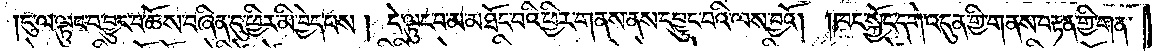ངུ་ལ་ལྟུང་བ་བྱུང་བ་ཆོས་བཞིན་དུ་ཕྱིར་མི་བྱེད་པས། དེ་ལྟུང་བ་མ་མཐོང་བའི་ཕྱིར་གནས་ནས་དབྱུང་བའི་ལས་བྱའོ། །ཁང་སྐྱོང་དགེ་འདུན་གྱི་གནས་བརྟན་གྱི་གན་
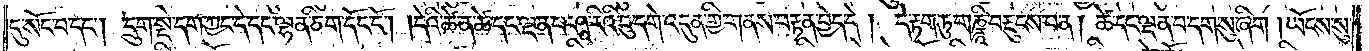དུ་སོང་བ་དང༌། དྲུག་སྡེ་དག་ཀྱང་དེ་དང་ལྷན་ཅིག་དོང་ངོ༌། །དེའི་ཚེ་ན་ཚེ་དང་ལྡན་པ་ཤཱ་རིའི་བུ་དགེ་འདུན་གྱི་གནས་བརྟན་བྱེད་དེ། དེ་རྟག་ཏུ་གཎྜཱི་བརྡུངས་པ་ན། ཚེ་དང་ལྡན་པ་དག་སུ་ཞིག །ཡོངས་སུ་
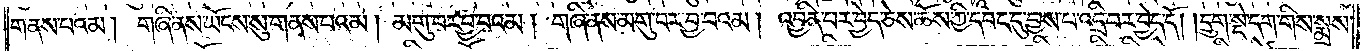གནས་པའམ། གཞི་ནས་ཡོངས་སུ་གནས་པའམ། མགུ་བར་བྱ་བའམ། གཞི་ནས་མགུ་བར་བྱ་བའམ། འབྱིན་པར་བྱེད་ཅེས་ཆོས་ཀྱི་དབང་དུ་བྱས་པ་འདྲི་བར་བྱེད་དོ། །དྲུག་སྡེ་དག་གིས་སྨྲས་
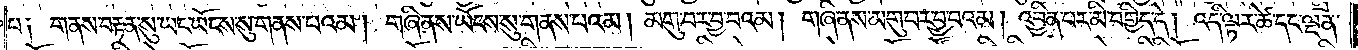པ༑ གནས་བརྟན་སུ་ཡང་ཡོངས་སུ་གནས་པའམ། གཞི་ནས་ཡོངས་སུ་གནས་པའམ། མགུ་བར་བྱ་བའམ། གཞི་ནས་མགུ་བར་བྱ་བའམ། འབྱིན་པར་མི་བགྱིད་དེ། འདི་ལྟར་ཚེ་དང་ལྡན་
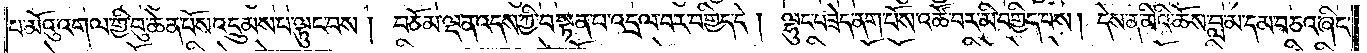པ་མོའུ་འགལ་གྱི་བུ་ཆེན་པོས་འདྲུམས་པ་ལྟུང་བས། བཅོམ་ལྡན་འདས་ཀྱི་བསྟན་པ་འདྲལ་བར་བགྱིད་དེ། ལྷུང་བཟེད་ནག་པོས་འཚོ་བར་མི་བགྱིད་པས། དེས་ན་མིའི་ཆོས་བླ་མ་དམ་བཅའ་ཞིང་
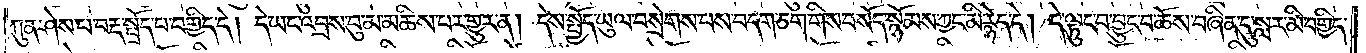ཀུན་ཤེས་པ་བརྡ་སྤྲོད་པ་བགྱིད་དེ། དེ་ཡང་འབྲས་བུ་མ་མཆིས་པར་གྱུར་ན། དེས་སྤྱོད་ཡུལ་བསྲེགས་པས་བདག་ཅག་གིས་བསོད་སྙོམས་ཀྱང་མི་རྙེད་དེ། དེ་ལྟུང་བ་བྱུང་བ་ཆོས་བཞིན་དུ་སླར་མི་བགྱིད་
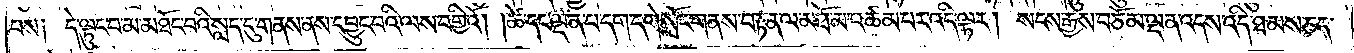པས༑ དེ་ལྟུང་བ་མ་མཐོང་བའི་སླད་དུ་གནས་ནས་དབྱུང་བའི་ལས་བགྱིའོ། །ཚེ་དང་ལྡན་པ་དག་དགེ་སློང་གནས་བརྟན་ལ་མཐོ་མ་འཚམ་པར་འདི་ལྟར། སངས་རྒྱས་བཅོམ་ལྡན་འདས་འདི་ཐམས་ཅད་
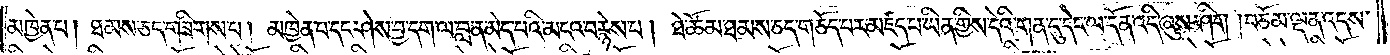མཁྱེན་པ། ཐམས་ཅད་གཟིགས་པ། མཁྱེན་པ་དང་ཤེས་བྱ་དག་ལ་བླ་ན་མེད་པའི་མངའ་བརྙེས་པ། ཐེ་ཚོམ་ཐམས་ཅད་གཅོད་པར་མཛད་པ་ཡིན་གྱིས་དེའི་གན་དུ་དེང་ལ་དོན་འདི་ཞུས་ཤིག །བཅོམ་ལྡན་འདས་
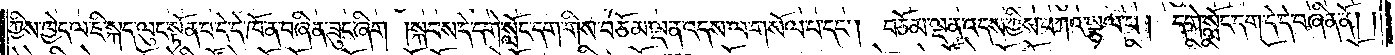ཀྱིས་ཁྱེད་ལ་ཇི་སྐད་ལུང་སྟོན་པ་དེ་དེ་ཁོ་ན་བཞིན་ཟུང་ཞིག །སྐབས་དེ་དགེ་སློང་དག་གིས་བཅོམ་ལྡན་འདས་ལ་གསོལ་པ་དང༌། བཅོམ་ལྡན་འདས་ཀྱིས་བཀའ་སྩལ་པ། དགེ་སློང་དག་དེ་དེ་བཞིན་ནོ། །
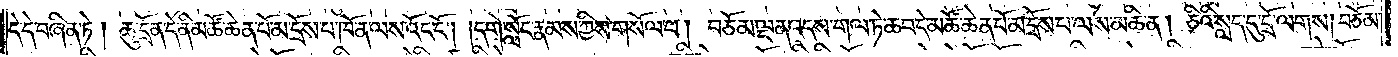དེ་དེ་བཞིན་ཏེ། ཆུ་དྲོན་དེ་ནི་མཚོ་ཆེན་པོ་མ་དྲོས་པ་ཁོ་ན་ལས་འོང་ངོ༌། །དགེ་སློང་རྣམས་ཀྱིས་གསོལ་པ། བཅོམ་ལྡན་འདས་གལ་ཏེ་ཆབ་དེ་མཚོ་ཆེན་པོ་མ་དྲོས་པ་ལས་མཆི་ན། ཅིའི་སླད་དུ་དྲོ་ལགས། བཅོམ་
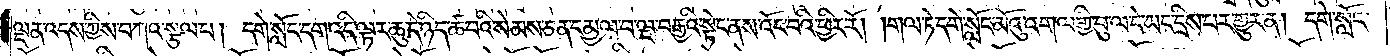ལྡན་འདས་ཀྱིས་བཀའ་སྩལ་པ། དགེ་སློང་དག་འདི་ལྟར་ཆུ་དེ་ཉིད་ཚ་བའི་སེམས་ཅན་དམྱལ་བ་ལྔ་བརྒྱའི་སྟེང་ནས་འོང་བའི་ཕྱིར་རོ། །གལ་ཏེ་དགེ་སློང་མོའུ་འགལ་གྱི་བུ་ལ་དེ་ཡང་དྲིས་པར་གྱུར་ན། དགེ་སློང་
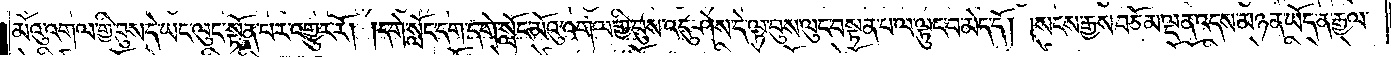མོའུ་འགལ་གྱི་བུས་དེ་ཡང་ལུང་སྟོན་པར་འགྱུར་རོ། །དགེ་སློང་དག་དགེ་སློང་མོའུ་འགལ་གྱི་བུས་འདུ་ཤེས་དེ་ལྟ་བུས་ལུང་བསྟན་པ་ལ་ལྟུང་བ་མེད་དོ། །སངས་རྒྱས་བཅོམ་ལྡན་འདས་མཉན་ཡོད་ན་རྒྱལ་
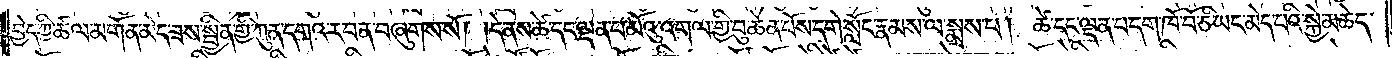བྱེད་ཀྱི་ཚལ་མགོན་མེད་ཟས་སྦྱིན་གྱི་ཀུན་དགའ་ར་བ་ན་བཞུགས་སོ། །དེ་ནས་ཚེ་དང་ལྡན་པ་མོའུ་འགལ་གྱི་བུ་ཆེན་པོས་དགེ་སློང་རྣམས་ལ་སྨྲས་པ། ཚེ་དང་ལྡན་པ་དག་ཁོ་བོ་ཅི་ཡང་མེད་པའི་སྐྱེ་མཆེད་
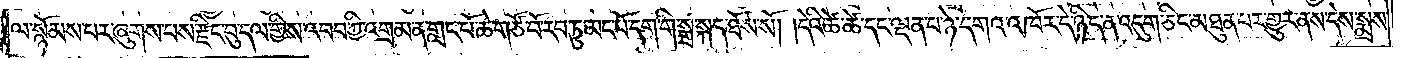ལ་སྙོམས་པར་ཞུགས་པས་རྫིང་བུ་དལ་གྱིས་འབབ་ཀྱི་འགྲམ་ན་གླང་པོ་ཆེ་གཙོ་བོ་རབ་ཏུ་མང་པོ་དག་གི་སྒྲ་སྐད་ཐོས་སོ། །དེའི་ཚེ་ཚེ་དང་ལྡན་པ་ཉེ་དགའ་འཁོར་དེ་ཉིད་ན་འདུག་ཅིང་མཐུན་པར་གྱུར་ནས་དེས་སྨྲས་
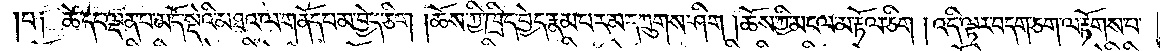པ༑ ཚེ་དང་ལྡན་པ་མདོ་སྡེའི་མཐའ་ལ་གནོད་པ་མ་བྱེད་ཅིག །ཆོས་ཀྱི་ཁྲིད་བྱེད་རྣམ་པར་མ་དཀྲུགས་ཤིག །ཆོས་ཀྱི་མངལ་མ་རྟོལ་ཅིག །འདི་ལྟར་བདག་ཅག་ལ་རྟོགས་པ་
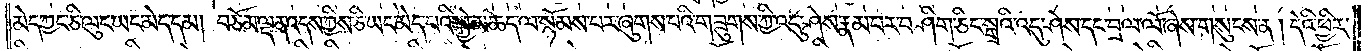མེད་ཀྱང་ཅི་ལུང་ཡང་མེད་དམ། བཅོམ་ལྡན་འདས་ཀྱིས་ཅི་ཡང་མེད་པའི་སྐྱེ་མཆེད་ལ་སྙོམས་པར་ཞུགས་པའི་གཟུགས་ཀྱི་འདུ་ཤེས་རྣམ་པར་བཤིག་ཅིང་སྒྲའི་འདུ་ཤེས་དང་བྲལ་ལོ་ཞེས་གསུངས་ན། དེའི་ཕྱིར་
